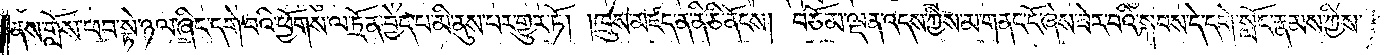ནས་གློས་ཕབ་སྟེ་ཉལ་ཞིང་དགེ་བའི་ཕྱོགས་ལ་ཏྲོན་བྱེད་པ་མི་ནུས་པར་གྱུར་ཏོ། །ཁྲུས་མཛད་ན་ནི་ཅི་ནོངས། བཅོམ་ལྡན་འདས་ཀྱིས་མ་གནང་ངོ་ཞེས་ཟེར་བའི་སྐབས་དེ་དགེ་སློང་རྣམས་ཀྱིས་
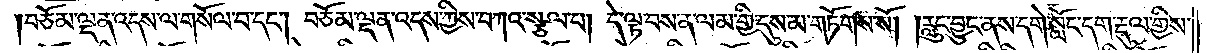བཅོམ་ལྡན་འདས་ལ་གསོལ་བ་དང༌། བཅོམ་ལྡན་འདས་ཀྱིས་བཀའ་སྩལ་པ། དེ་ལྟ་བས་ན་ལམ་གྱི་དུས་མ་གཏོགས་སོ། །རླུང་བྱུང་ནས་དགེ་སློང་དག་རྡུལ་གྱིས་
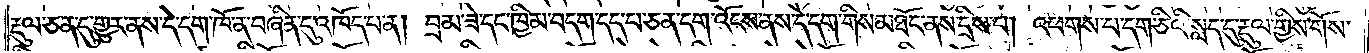རྡུལ་ཅན་དུ་གྱུར་ནས་དེ་དག་ཁོ་ན་བཞིན་དུ་འཁོད་པ་ན། བྲམ་ཟེ་དང་ཁྱིམ་བདག་དད་པ་ཅན་དག་འོངས་ནས་དེ་དག་གིས་མཐོང་ནས་དྲིས་པ། འཕགས་པ་དག་ཅིའི་སླད་དུ་རྡུལ་གྱིས་གོས་
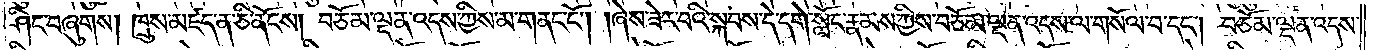ཤིང་བཞུགས། ཁྲུས་མཛད་ན་ཅི་ནོངས། བཅོམ་ལྡན་འདས་ཀྱིས་མ་གནང་ངོ༌། །ཞེས་ཟེར་བའི་སྐབས་དེ་དགེ་སློང་རྣམས་ཀྱིས་བཅོམ་ལྡན་འདས་ལ་གསོལ་བ་དང༌། བཅོམ་ལྡན་འདས་
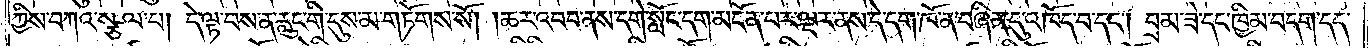ཀྱིས་བཀའ་སྩལ་པ། དེ་ལྟ་བས་ན་རླུང་གི་དུས་མ་གཏོགས་སོ། །ཆར་འབབ་ནས་དགེ་སློང་དག་མངོན་པར་ལྔར་ནས་དེ་དག་ཁོ་ན་བཞིན་དུ་འཁོད་པ་དང༌། བྲམ་ཟེ་དང་ཁྱིམ་བདག་དད་
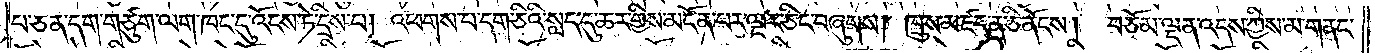པ་ཅན་དག་གཙུག་ལག་ཁང་དུ་འོངས་ཏེ་དྲིས་པ། འཕགས་པ་དག་ཅིའི་སླད་དུ་ཆར་གྱིས་མངོན་པར་ལྔར་ཅིང་བཞུགས། ཁྲུས་མཛད་ན་ཅི་ནོངས། བཅོམ་ལྡན་འདས་ཀྱིས་མ་གནང་
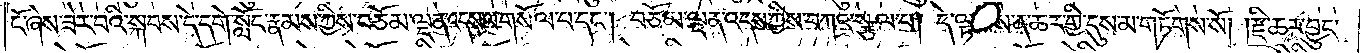ངོ་ཞེས་ཟེར་བའི་སྐབས་དེ་དགེ་སློང་རྣམས་ཀྱིས་བཅོམ་ལྡན་འདས་ལ་གསོལ་པ་དང༌། བཅོམ་ལྡན་འདས་ཀྱིས་བཀའ་སྩལ་པ། དེ་ལྟ་བས་ན་ཆར་གྱི་དུས་མ་གཏོགས་སོ། །རྫི་ཆར་བྱུང་
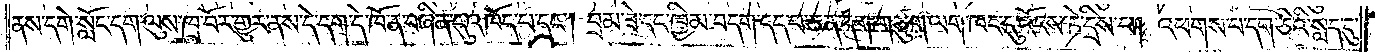ནས་དགེ་སློང་དག་ལུས་ཁྲ་བོར་གྱུར་ནས་དེ་དག་དེ་ཁོ་ན་བཞིན་དུ་འཁོད་པ་དང༌། བྲམ་ཟེ་དང་ཁྱིམ་བདག་དད་པ་ཅན་དག་གཙུག་ལག་ཁང་དུ་འོངས་ཏེ་དྲིས་པ། འཕགས་པ་དག་ཅིའི་སླད་དུ་
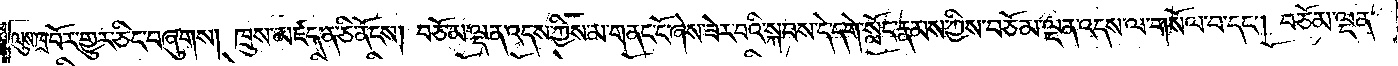ལུས་ཁྲ་བོར་གྱུར་ཅིང་བཞུགས། ཁྲུས་མཛད་ན་ཅི་ནོངས། བཅོམ་ལྡན་འདས་ཀྱིས་མ་གནང་ངོ་ཞེས་ཟེར་བའི་སྐབས་དེ་དགེ་སློང་རྣམས་ཀྱིས་བཅོམ་ལྡན་འདས་ལ་གསོལ་པ་དང༌། བཅོམ་ལྡན་
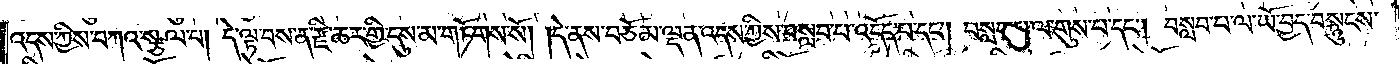འདས་ཀྱིས་བཀའ་སྩལ་པ། དེ་ལྟ་བས་ན་རྫི་ཆར་གྱི་དུས་མ་གཏོགས་སོ། །དེ་ནས་བཅོམ་ལྡན་འདས་ཀྱིས་བསླབ་པ་འདོད་པ་དང༌། བསླབ་པ་ལ་གུས་པ་དང༌། བསླབ་པ་ལ་ཡོ་བྱད་བསྙུངས་
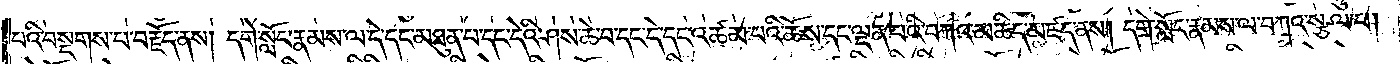པའི་བསྔགས་པ་བརྗོད་ནས། དགེ་སློང་རྣམས་ལ་དེ་དང་མཐུན་པ་དང་དེའི་ཤས་ཆེ་བ་དང་དེ་དང་འཚམ་པའི་ཆོས་དང་ལྡན་པའི་བཀའ་མཆིད་མཛད་ནས། དགེ་སློང་རྣམས་ལ་བཀའ་སྩལ་པ།
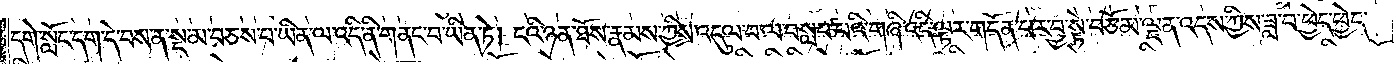དགེ་སློང་དག་དེ་བས་ན་སྔ་མ་བཅས་པ་ཡིན་ལ་འདི་ནི་གནང་བ་ཡིན་ཏེ། ངའི་ཉན་ཐོས་རྣམས་ཀྱིས་འདུལ་བ་ལ་བསླབ་པའི་གཞི་འདི་ལྟར་གདོན་པར་བྱ་སྟེ་བཅོམ་ལྡན་འདས་ཀྱིས་ཟླ་བ་ཕྱེད་ཕྱེད་
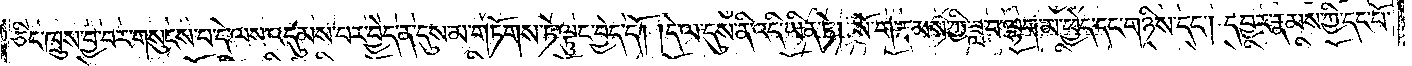ཅིང་ཁྲུས་བྱ་བར་གསུངས་པ་དེ་ལས་འདུམས་པར་བྱེད་ན་དུས་མ་གཏོགས་ཏེ་ལྟུང་བྱེད་དོ། །དེ་ལ་དུས་ནི་འདི་ཡིན་ཏེ། སོ་ག་རྣམས་ཀྱི་ཟླ་བ་ལྷག་མ་ཕྱེད་དང་གཉིས་དང༌། དབྱར་རྣམས་ཀྱི་དང་པོ་
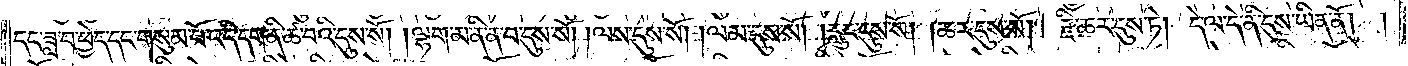དང་ཟླ་བ་ཕྱེད་དང་གསུམ་པོ་འདི་དག་ནི་ཚ་བའི་དུས་སོ། །ལྷག་མ་ནི་ན་བ་དུས་སོ། །ལས་དུས་སོ། །ལམ་དུས་སོ། །རླུང་དུས་སོ། །ཆར་དུས་སོ། །རྫི་ཆར་དུས་ཏེ། དེ་ལ་དེ་ནི་དུས་ཡིན་ནོ། །
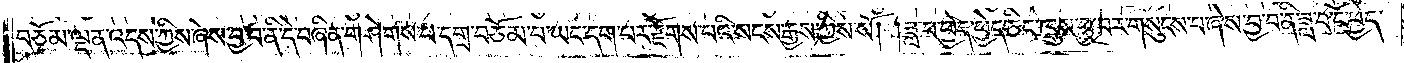བཅོམ་ལྡན་འདས་ཀྱིས་ཞེས་བྱ་བ་ནི་དེ་བཞིན་གཤེགས་པ་དགྲ་བཅོམ་པ་ཡང་དག་པར་རྫོགས་པའི་སངས་རྒྱས་ཀྱིས་སོ། །ཟླ་བ་ཕྱེད་ཕྱེད་ཅིང་ཁྲུས་བྱ་བར་གསུངས་པ་ཞེས་བྱ་བ་ནི་ཟླ་བ་ངོ་ཕྱེད་
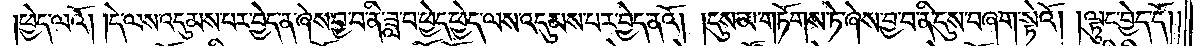ཕྱེད་ལའོ། །དེ་ལས་འདུམས་པར་བྱེད་ན་ཞེས་བྱ་བ་ནི་ཟླ་བ་ཕྱེད་ཕྱེད་ལས་འདུམས་པར་བྱེད་ནའོ། །དུས་མ་གཏོགས་ཏེ་ཞེས་བྱ་བ་ནི་དུས་བཞག་སྟེའོ། །ལྟུང་བྱེད་དོ༎
